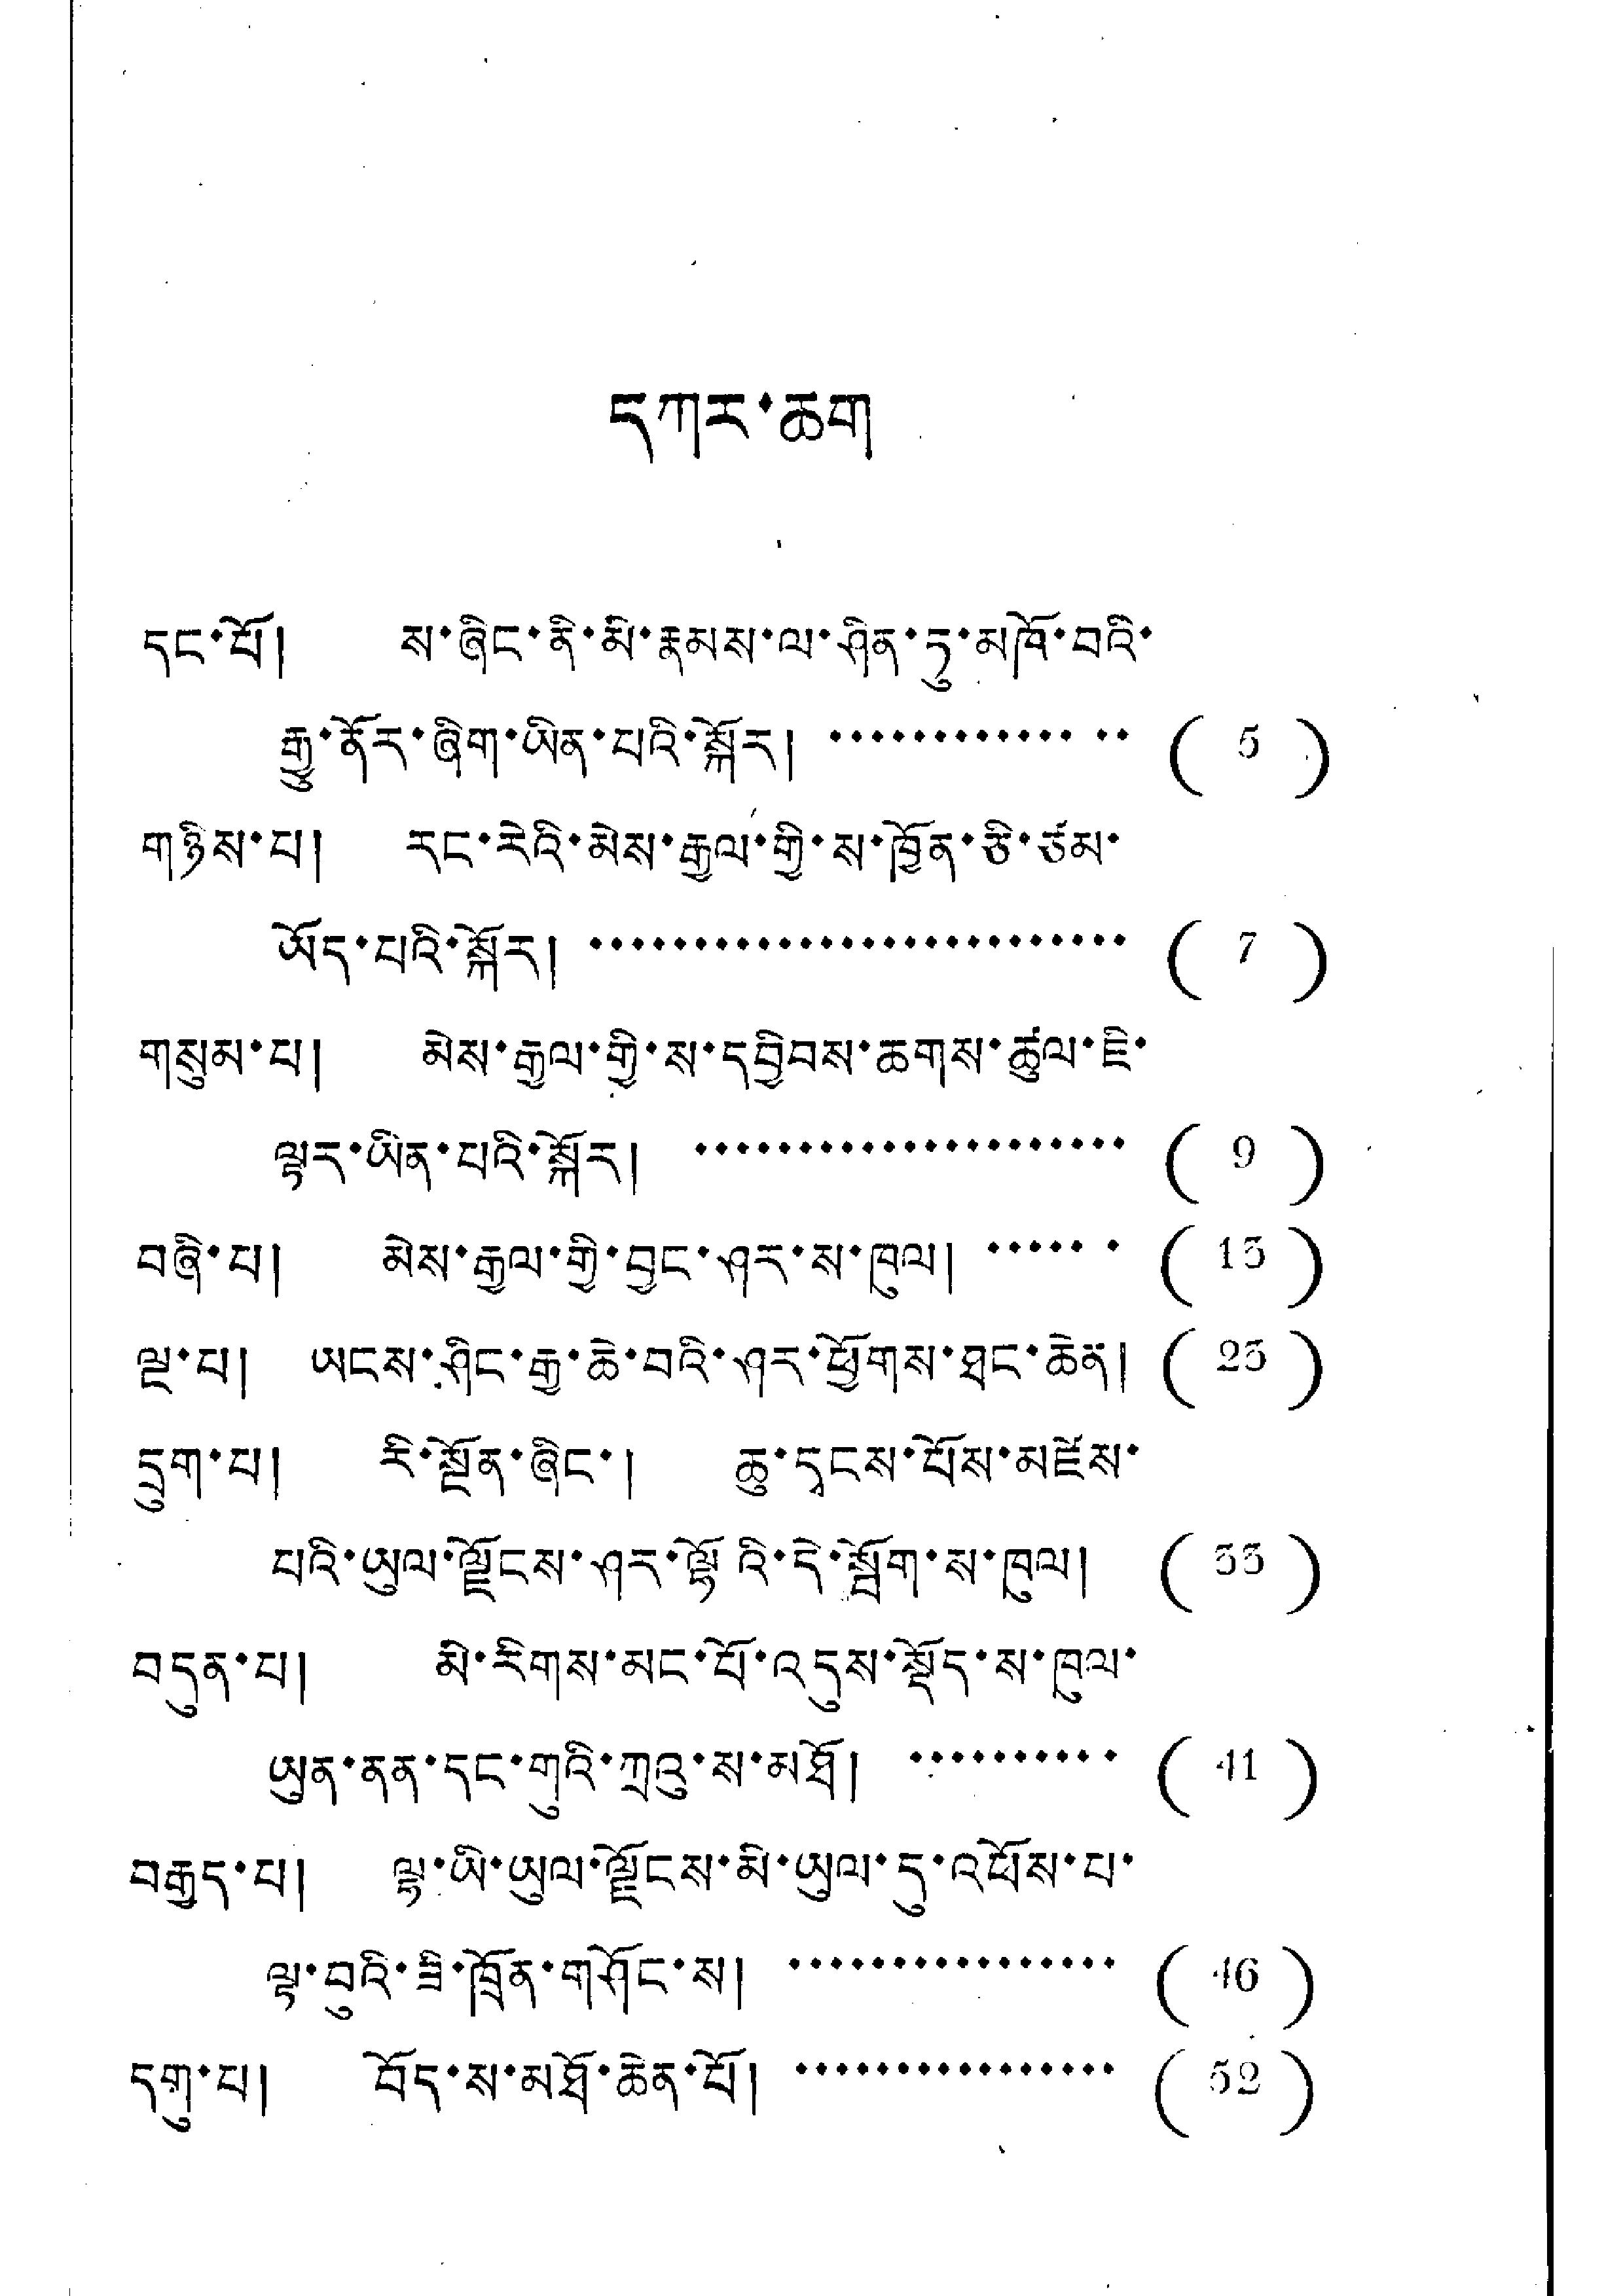དཀར་ཆག
དང་པོ། ས་ཞིང་ནི་མི་རྣམས་ལ་ཤིན་ཏུ་མཁོ་བའི་
རྒྱུ་ནོར་ཞིག་ཡིན་པའི་སྐོར། …………… (5)
གཉིས་པ། རང་རེའི་མེས་རྒྱལ་གྱི་ས་ཁྱོན་ཅི་ཅམ་
ཡོད་པའི་སྐོར། ……………………… (7)
གསུམ་པ། མེས་རྒྱལ་གྱི་ས་དབྱིབས་ཆགས་ཚུལ་ཇི་
ལྟར་ཡིན་པའི་སྐོར། ………………… (9)
བཞི་པ། མེས་རྒྱལ་གྱི་བྱང་ཤར་ས་ཁུལ། …… (13)
ལྔ་པ། ཡངས་ཤིང་རྒྱ་ཆེ་བའི་ཤར་ཕྱོགས་ཐང་ཆེན། (23)
དྲུག་པ། རི་སྔོན་ཞིང་། ཆུ་དྭངས་པོས་མཛེས་
པའི་ཡུལ་ལྗོངས་ཤར་ལྷོའི་དེ་སྦོག་ས་ཁུལ། (33)
བདུན་པ། མི་རིགས་མང་པོ་འདུས་སྡོད་ས་ཁུལ་
ཡུན་ནན་དང་གུའི་ཀྲའུ་ས་མཐོ། ……… (41)
བརྒྱད་པ། ལྷ་ཡི་ཡུལ་ལྗོངས་མི་ཡུལ་དུ་འཕོས་པ་
ལྟ་བའི་ཟི་ཁྲོན་གཤོང་ས། ……………… (46)
དགུ་པ། བོད་ས་མཐོ་ཆེན་པོ། …………… (52)
